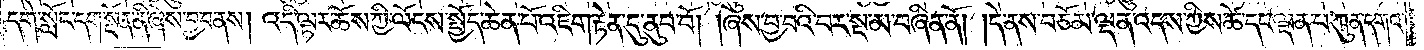དགེ་སློང་དག་སྔོན་ནི་ཞེས་བྱ་བ་ནས། འདི་ལྟར་ཆོས་ཀྱི་ལོངས་སྤྱོད་ཆེན་པོ་འཇིག་རྟེན་དུ་ནུབ་བོ། །ཞེས་བྱ་བའི་བར་སྔ་མ་བཞིན་ནོ། །དེ་ནས་བཅོམ་ལྡན་འདས་ཀྱིས་ཚེ་དང་ལྡན་པ་ཀུན་དགའ་
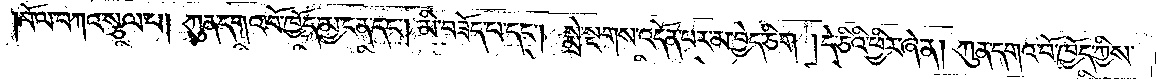བོ་ལ་བཀའ་སྩལ་པ། ཀུན་དགའ་བོ་ཁྱོད་མྱ་ངན་དང༌། མི་བཟོད་པ་དང༌། སྨྲེ་སྔགས་འདོན་པར་མ་བྱེད་ཅིག །དེ་ཅིའི་ཕྱིར་ཞེ་ན། ཀུན་དགའ་བོ་ཁྱོད་ཀྱིས་
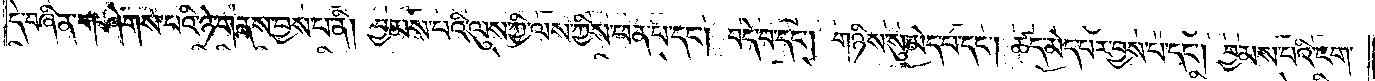དེ་བཞིན་གཤེགས་པའི་ཉེ་གནས་བྱས་པ་ནི། བྱམས་པའི་ལུས་ཀྱི་ལས་ཀྱིས་ཕན་པ་དང༌། བདེ་བ་དང༌། གཉིས་སུ་མེད་པ་དང༌། ཚད་མེད་པར་བྱས་པ་དང༌། བྱམས་པའི་ངག་
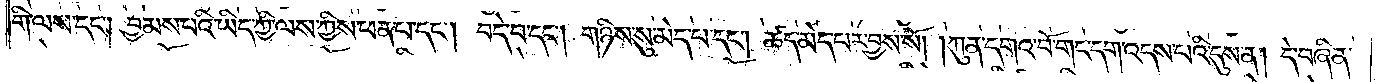གི་ལས་དང༌། བྱམས་པའི་ཡིད་ཀྱི་ལས་ཀྱིས་ཕན་པ་དང༌། བདེ་བ་དང༌། གཉིས་སུ་མེད་པ་དང༌། ཚད་མེད་པར་བྱས་སོ། །ཀུན་དགའ་བོ་གང་དག་འདས་པའི་དུས་ན། དེ་བཞིན་
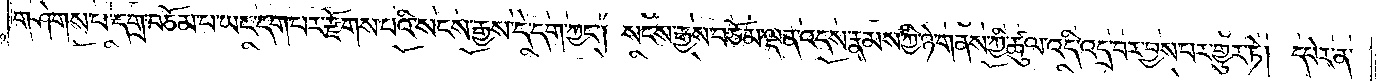གཤེགས་པ་དགྲ་བཅོམ་པ་ཡང་དག་པར་རྫོགས་པའི་སངས་རྒྱས་དེ་དག་ཀྱང༌། སངས་རྒྱས་བཅོམ་ལྡན་འདས་རྣམས་ཀྱི་ཉེ་གནས་ཀྱི་ཚུལ་འདི་འདྲ་བར་བྱས་པར་གྱུར་ཏེ། དཔེར་ན་
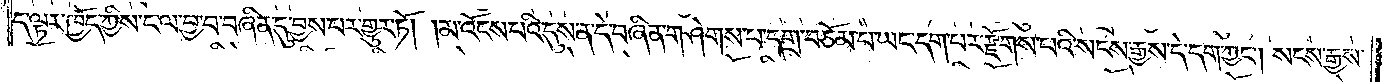ད་ལྟར་ཁྱོད་ཀྱིས་ང་ལ་བྱ་བ་བཞིན་དུ་བྱས་པར་གྱུར་ཏོ། །མ་འོངས་པའི་དུས་ན་དེ་བཞིན་གཤེགས་པ་དགྲ་བཅོམ་པ་ཡང་དག་པར་རྫོགས་པའི་སངས་རྒྱས་དེ་དག་ཀྱང༌། སངས་རྒྱས་
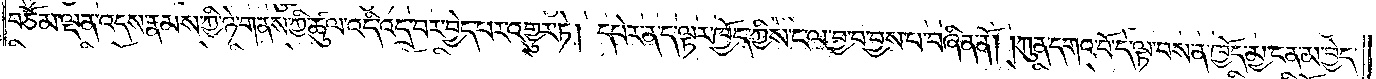བཅོམ་ལྡན་འདས་རྣམས་ཀྱི་ཉེ་གནས་ཀྱི་ཚུལ་འདི་འདྲ་བར་བྱེད་པར་འགྱུར་ཏེ། དཔེར་ན་ད་ལྟར་ཁྱོད་ཀྱིས་ངལ་བྱ་བ་བྱས་པ་བཞིན་ནོ། །ཀུན་དགའ་བོ་དེ་ལྟ་བས་ན་ཁྱོད་མྱ་ངན་མ་བྱེད་
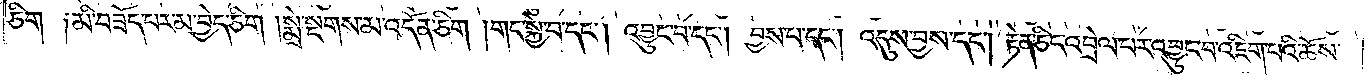ཅིག་༑མི་བཟོད་བར་མ་བྱེད་ཅིག །སྨྲེ་སྔགས་མ་འདོན་ཅིག །གང་སྐྱེ་བ་དང༌། འབྱུང་བ་དང༌། བྱས་པ་དང༌། འདུས་བྱས་དང༌། རྟེན་ཅིང་འབྲེལ་པར་འབྱུང་བ་འཇིག་པའི་ཆོས་
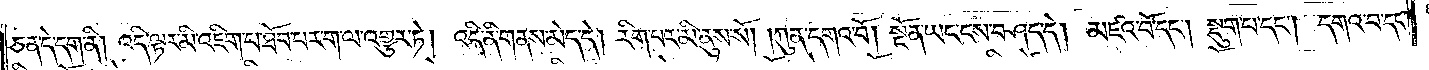ཅན་དེ་དག་ནི། འདི་ལྟར་མི་འཇིག་པ་ཐོབ་པར་ག་ལ་འགྱུར་ཏེ། འདི་ནི་གནས་མེད་དེ། རིག་པར་མི་ནུས་སོ། །ཀུན་དགའ་བོ། སྔོན་ཡང་ངས་བཤད་དེ། མཛའ་བོ་དང༌། སྡུག་པ་དང༌། དགའ་བ་དང་
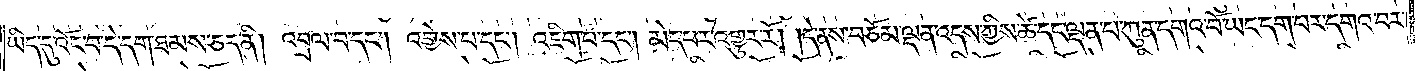ཡིད་དུ་འོང་བ་དེ་དག་ཐམས་ཅད་ནི། འབྲལ་བ་དང༌། འགྱེས་པ་དང༌། འཇིག་པ་དང༌། མེད་པར་འགྱུར་རོ། །དེ་ནས་བཅོམ་ལྡན་འདས་ཀྱིས་ཚེ་དང་ལྡན་པ་ཀུན་དགའ་བོ་ཡང་དག་པར་དགའ་བར་
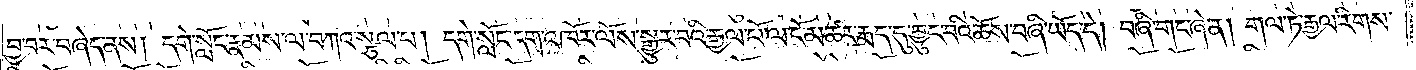བྱ་བར་བཞེད་ནས། དགེ་སློང་རྣམས་ལ་བཀའ་སྩལ་པ། དགེ་སློང་དག་འཁོར་ལོས་སྒྱུར་བའི་རྒྱལ་པོ་ལ་ངོ་མཚར་རྨད་དུ་བྱུང་བའི་ཆོས་བཞི་ཡོད་དེ། བཞི་གང་ཞེ་ན། གལ་ཏེ་རྒྱལ་རིགས་
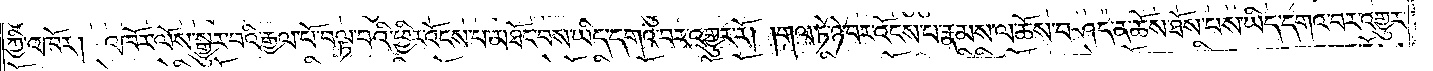ཀྱི་འཁོར། འཁོར་ལོས་སྒྱུར་བའི་རྒྱལ་པོ་བལྟ་བའི་ཕྱིར་འོངས་པ་མཐོང་བས་ཡིད་དགའ་བར་འགྱུར་རོ། །གལ་ཏེ་ཉེ་བར་འོངས་པ་རྣམས་ལ་ཆོས་བཤད་ན་ཆོས་ཐོས་པས་ཡིད་དགའ་བར་འགྱུར་
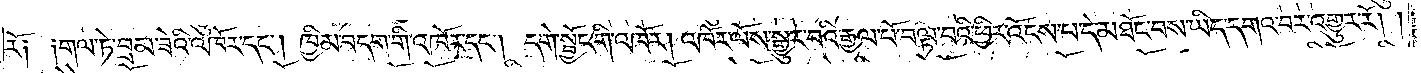རོ༑ ༑གལ་ཏེ་བྲམ་ཟེའི་འཁོར་དང༌། ཁྱིམ་བདག་གི་འཁོར་དང༌། དགེ་སྦྱོང་གི་འཁོར། འཁོར་ལོས་སྒྱུར་བའི་རྒྱལ་པོ་བལྟ་བའི་ཕྱིར་འོངས་པ་དེ་མཐོང་བས་ཡིད་དགའ་བར་འགྱུར་རོ། །
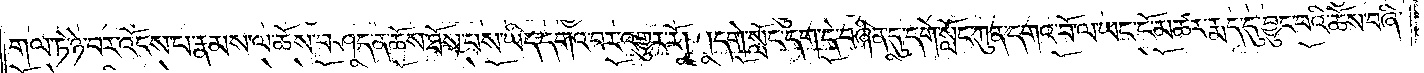གལ་ཏེ་ཉེ་བར་འོངས་པ་རྣམས་ལ་ཆོས་བཤད་ན་ཆོས་ཐོས་པས་ཡིད་དགའ་བར་འགྱུར་རོ། །དགེ་སློང་དག་དེ་བཞིན་དུ་དགེ་སློང་ཀུན་དགའ་བོ་ལ་ཡང་ངོ་མཚར་རྨད་དུ་བྱུང་བའི་ཆོས་བཞི་
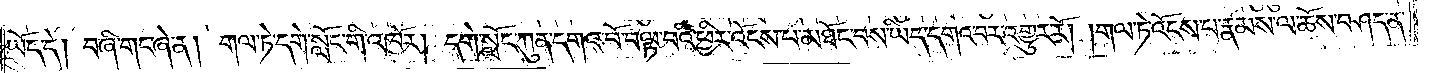ཡོད་དེ། བཞི་གང་ཞེ་ན། གལ་ཏེ་དགེ་སློང་གི་འཁོར། དགེ་སློང་ཀུན་དགའ་བོ་བལྟ་བའི་ཕྱིར་འོངས་པ་མཐོང་བས་ཡིད་དགའ་བར་འགྱུར་རོ། །གལ་ཏེ་འོངས་པ་རྣམས་ལ་ཆོས་བཤད་ན་
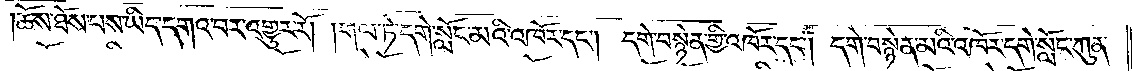ཆོས་ཐོས་པས་ཡིད་དགའ་བར་འགྱུར་རོ། །གལ་ཏེ་དགེ་སློང་མའི་འཁོར་དང༌། དགེ་བསྙེན་གྱི་འཁོར་དང༌། དགེ་བསྙེན་མའི་འཁོར་དགེ་སློང་ཀུན་
